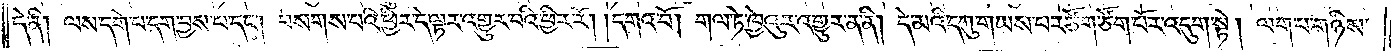དེ་ནི། ལས་དགེ་པ་དག་བྱས་པ་དང༌། བསགས་པའི་ཕྱིར་དེ་ལྟར་འགྱུར་བའི་ཕྱིར་རོ། །དགའ་བོ། གལ་ཏེ་ཁྱེའུར་འགྱུར་ན་ནི། དེ་མའི་དཀུ་གཡས་པར་ཙོག་ཙོག་པོར་འདུག་སྟེ། ལག་པ་གཉིས་
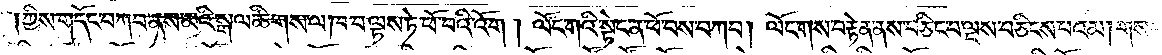ཀྱིས་གདོང་བཀབ་ནས་མའི་སྒལ་ཚིགས་ལ་ཁ་བལྟས་ཏེ་ཕོ་བའི་འོག །ལོང་གའི་སྟེང་ན་ཕོ་བས་བཀབ། ལོང་གས་བརྟེན་ནས་བཅིང་བ་ལྔས་བཅིངས་པའམ། གསལ་
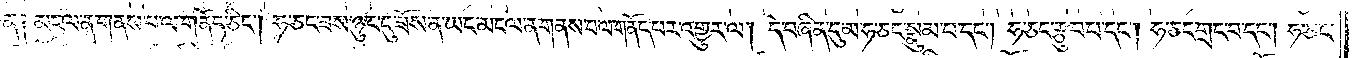ན༑ མངལ་ན་གནས་པ་ལ་གནོད་ཅིང༌། ཧ་ཅང་ཟས་ཉུང་ངུ་ཟོས་ན་ཡང་མངལ་ན་གནས་པ་ལ་གནོད་པར་འགྱུར་ལ། དེ་བཞིན་དུ་མ་ཧ་ཅང་སྣུམ་པ་དང༌། ཧ་ཅང་རྩུབ་པ་དང༌། ཧ་ཅང་གྲང་བ་དང༌། ཧ་ཅང་
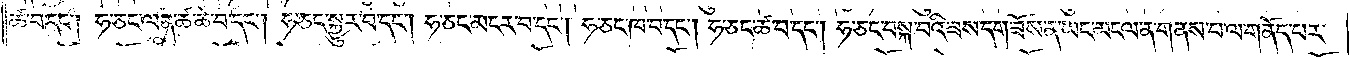ཚ་བ་དང༌། ཧ་ཅང་ལན་ཚ་ཆེ་བ་དང༌། ཧ་ཅང་སྐྱུར་བ་དང༌། ཧ་ཅང་མངར་བ་དང༌། ཧ་ཅང་ཁ་བ་དང༌། ཧ་ཅང་ཚ་བ་དང༌། ཧ་ཅང་བསྐ་བའི་ཟས་དག་ཟོས་ན་ཡང་མངལ་ན་གནས་པ་ལ་གནོད་པར་
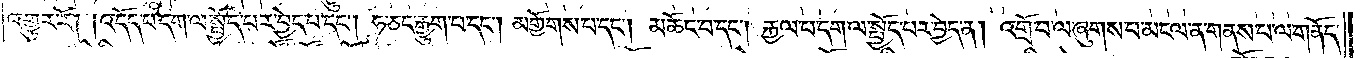འགྱུར་རོ། །འདོད་པ་དག་ལ་སྤྱོད་པར་བྱེད་པ་དང༌། ཧ་ཅང་རྒྱུག་པ་དང༌། མགྱོགས་པ་དང༌། མཆོང་བ་དང༌། རྐྱལ་བ་དག་ལ་སྤྱོད་པར་བྱེད་ན། འགྲོ་བ་ལ་ཞུགས་པ་མངལ་ན་གནས་པ་ལ་གནོད་
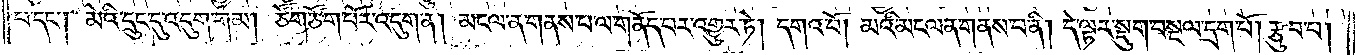པ་དང༌། མེའི་དྲུང་དུ་འདུག་གམ། ཙོག་ཙོག་པོར་འདུག་ན། མངལ་ན་གནས་པ་ལ་གནོད་པར་འགྱུར་ཏེ། དགའ་བོ། མའི་མངལ་ན་གནས་པ་ནི། དེ་ལྟར་སྡུག་བསྔལ་དྲག་པོ། རྩུབ་པ།
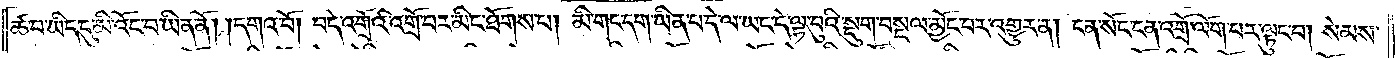ཚ་བ་ཡིད་དུ་མི་འོང་བ་ཡིན་ནོ། །དགའ་བོ། བདེ་འགྲོའི་འགྲོ་བར་མིང་ཐོགས་པ། མི་གང་དག་ཡིན་པ་དེ་ལ་ཡང་དེ་ལྟ་བུའི་སྡུག་བསྔལ་མྱོང་བར་འགྱུར་ན། ངན་སོང་ངན་འགྲོ་ལོག་པར་ལྟུང་བ། སེམས་
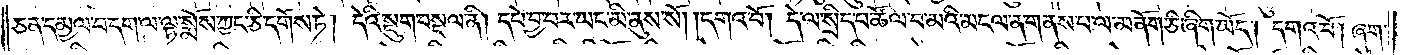ཅན་དམྱལ་བ་དག་ལ་ལྟ་སྨོས་ཀྱང་ཅི་དགོས་ཏེ། དེའི་སྡུག་བསྔལ་ནི། དཔེ་བྱ་བར་ཡང་མི་ནུས་སོ། །དགའ་བོ། དེ་ལ་སྲིད་པ་ཚོལ་བ་མའི་མངལ་ན་གནས་པ་ལ་མནོག་ཅི་ཞིག་ཡོད། དགའ་བོ། ཞག་
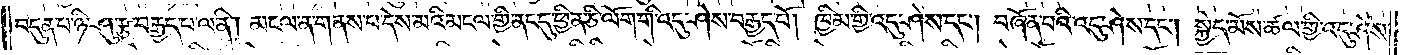བདུན་པ་ཉི་ཤུ་རྩ་བརྒྱད་པ་ལ་ནི། མངལ་ན་གནས་པ་དེས་མའི་མངལ་གྱི་ནང་དུ་ཕྱིན་ཅི་ལོག་གི་འདུ་ཤེས་བརྒྱད་པོ། ཁྱིམ་གྱི་འདུ་ཤེས་དང༌། བཞོན་པའི་འདུ་ཤེས་དང༌། སྐྱེད་མོས་ཚལ་གྱི་འདུ་ཤེས་
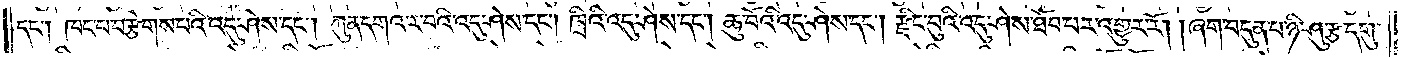དང༌། ཁང་པ་བརྩེགས་པའི་འདུ་ཤེས་དང༌། ཀུན་དགའ་ར་བའི་འདུ་ཤེས་དང༌། ཁྲིའི་འདུ་ཤེས་དང༌། ཆུ་བོའི་འདུ་ཤེས་དང༌། རྫིང་བུའི་འདུ་ཤེས་ཐོབ་པར་འགྱུར་རོ། །ཞག་བདུན་པ་ཉི་ཤུ་རྩ་དགུ་
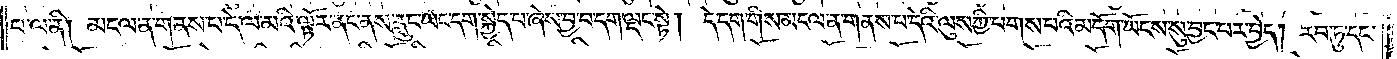པ་ལ་ནི། མངལ་ན་གནས་པ་དེ་ལ་མའི་ལྟོར་ནང་ནས་རླུང་ཡང་དག་སྐྱེད་པ་ཞེས་བྱ་བ་དག་ལྡང་སྟེ། དེ་དག་གིས་མངལ་ན་གནས་པ་དེའི་ལུས་ཀྱི་པགས་པའི་མདོག་ཡོངས་སུ་བྱང་བར་བྱེད། རབ་ཏུ་དང་
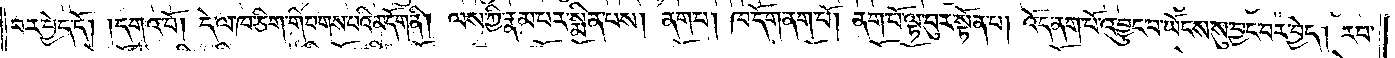བར་བྱེད་དོ། །དགའ་བོ། དེ་ལ་ཁ་ཅིག་གི་པགས་པའི་མདོག་ནི། ལས་ཀྱི་རྣམ་པར་སྨིན་པས། ནག་པ། ཁ་དོག་ནག་པོ། ནག་པོ་ལྟ་བུར་སྟོན་པ། འོད་ནག་པོ་འབྱུང་བ་ཡོངས་སུ་བྱང་བར་བྱེད། རབ་
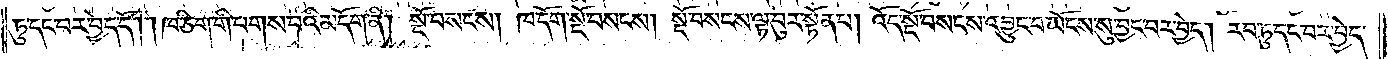ཏུ་དང་བར་བྱེད་དོ། །ཁ་ཅིག་གི་པགས་པའི་མདོག་ནི། སྔོ་བསངས། ཁ་དོག་སྔོ་བསངས། སྔོ་བསངས་ལྟ་བུར་སྟོན་པ། འོད་སྔོ་བསངས་འབྱུང་བ་ཡོངས་སུ་བྱང་བར་བྱེད། རབ་ཏུ་དང་བར་བྱེད་
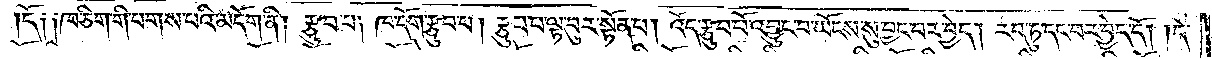དོ༑ ༑ཁ་ཅིག་གི་པགས་པའི་མདོག་ནི། རྩུབ་པ། ཁ་དོག་རྩུབ་པ། རྩུབ་པ་ལྟ་བུར་སྟོན་པ། འོད་རྩུབ་པོ་འབྱུང་བ་ཡོངས་སུ་བྱང་བར་བྱེད། རབ་ཏུ་དང་བར་བྱེད་དོ། །དེ་
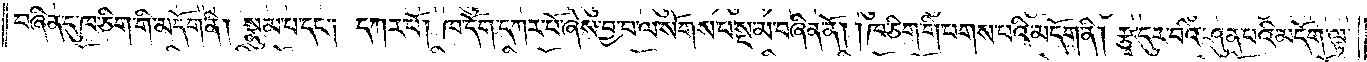བཞིན་དུ་ཁ་ཅིག་གི་མདོག་ནི། སྣུམ་པ་དང༌། དཀར་པོ། ཁ་དོག་དཀར་པོ་ཞེས་བྱ་བ་ལ་སོགས་པ་སྔ་མ་བཞིན་ནོ། །ཁ་ཅིག་གི་པགས་པའི་མདོག་ནི། རྩྭ་དུར་བའི་ཤུན་པའི་མདོག་ལྟ་
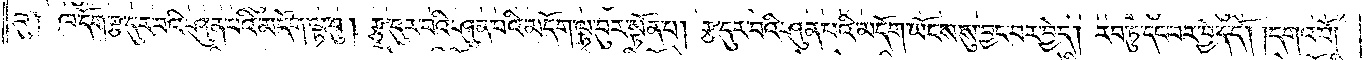བུ། ཁ་དོག་རྩ་དུར་བའི་ཤུན་པའི་མདོག་ལྟ་བུ། རྩྭ་དུར་བའི་ཤུན་པའི་མདོག་ལྟ་བུར་སྟོན་པ། རྩ་དུར་པའི་ཤུན་པའི་མདོག་ཡོངས་སུ་བྱང་བར་བྱེད། རབ་ཏུ་དང་བར་བྱེད་དོ། །དགའ་བོ།
